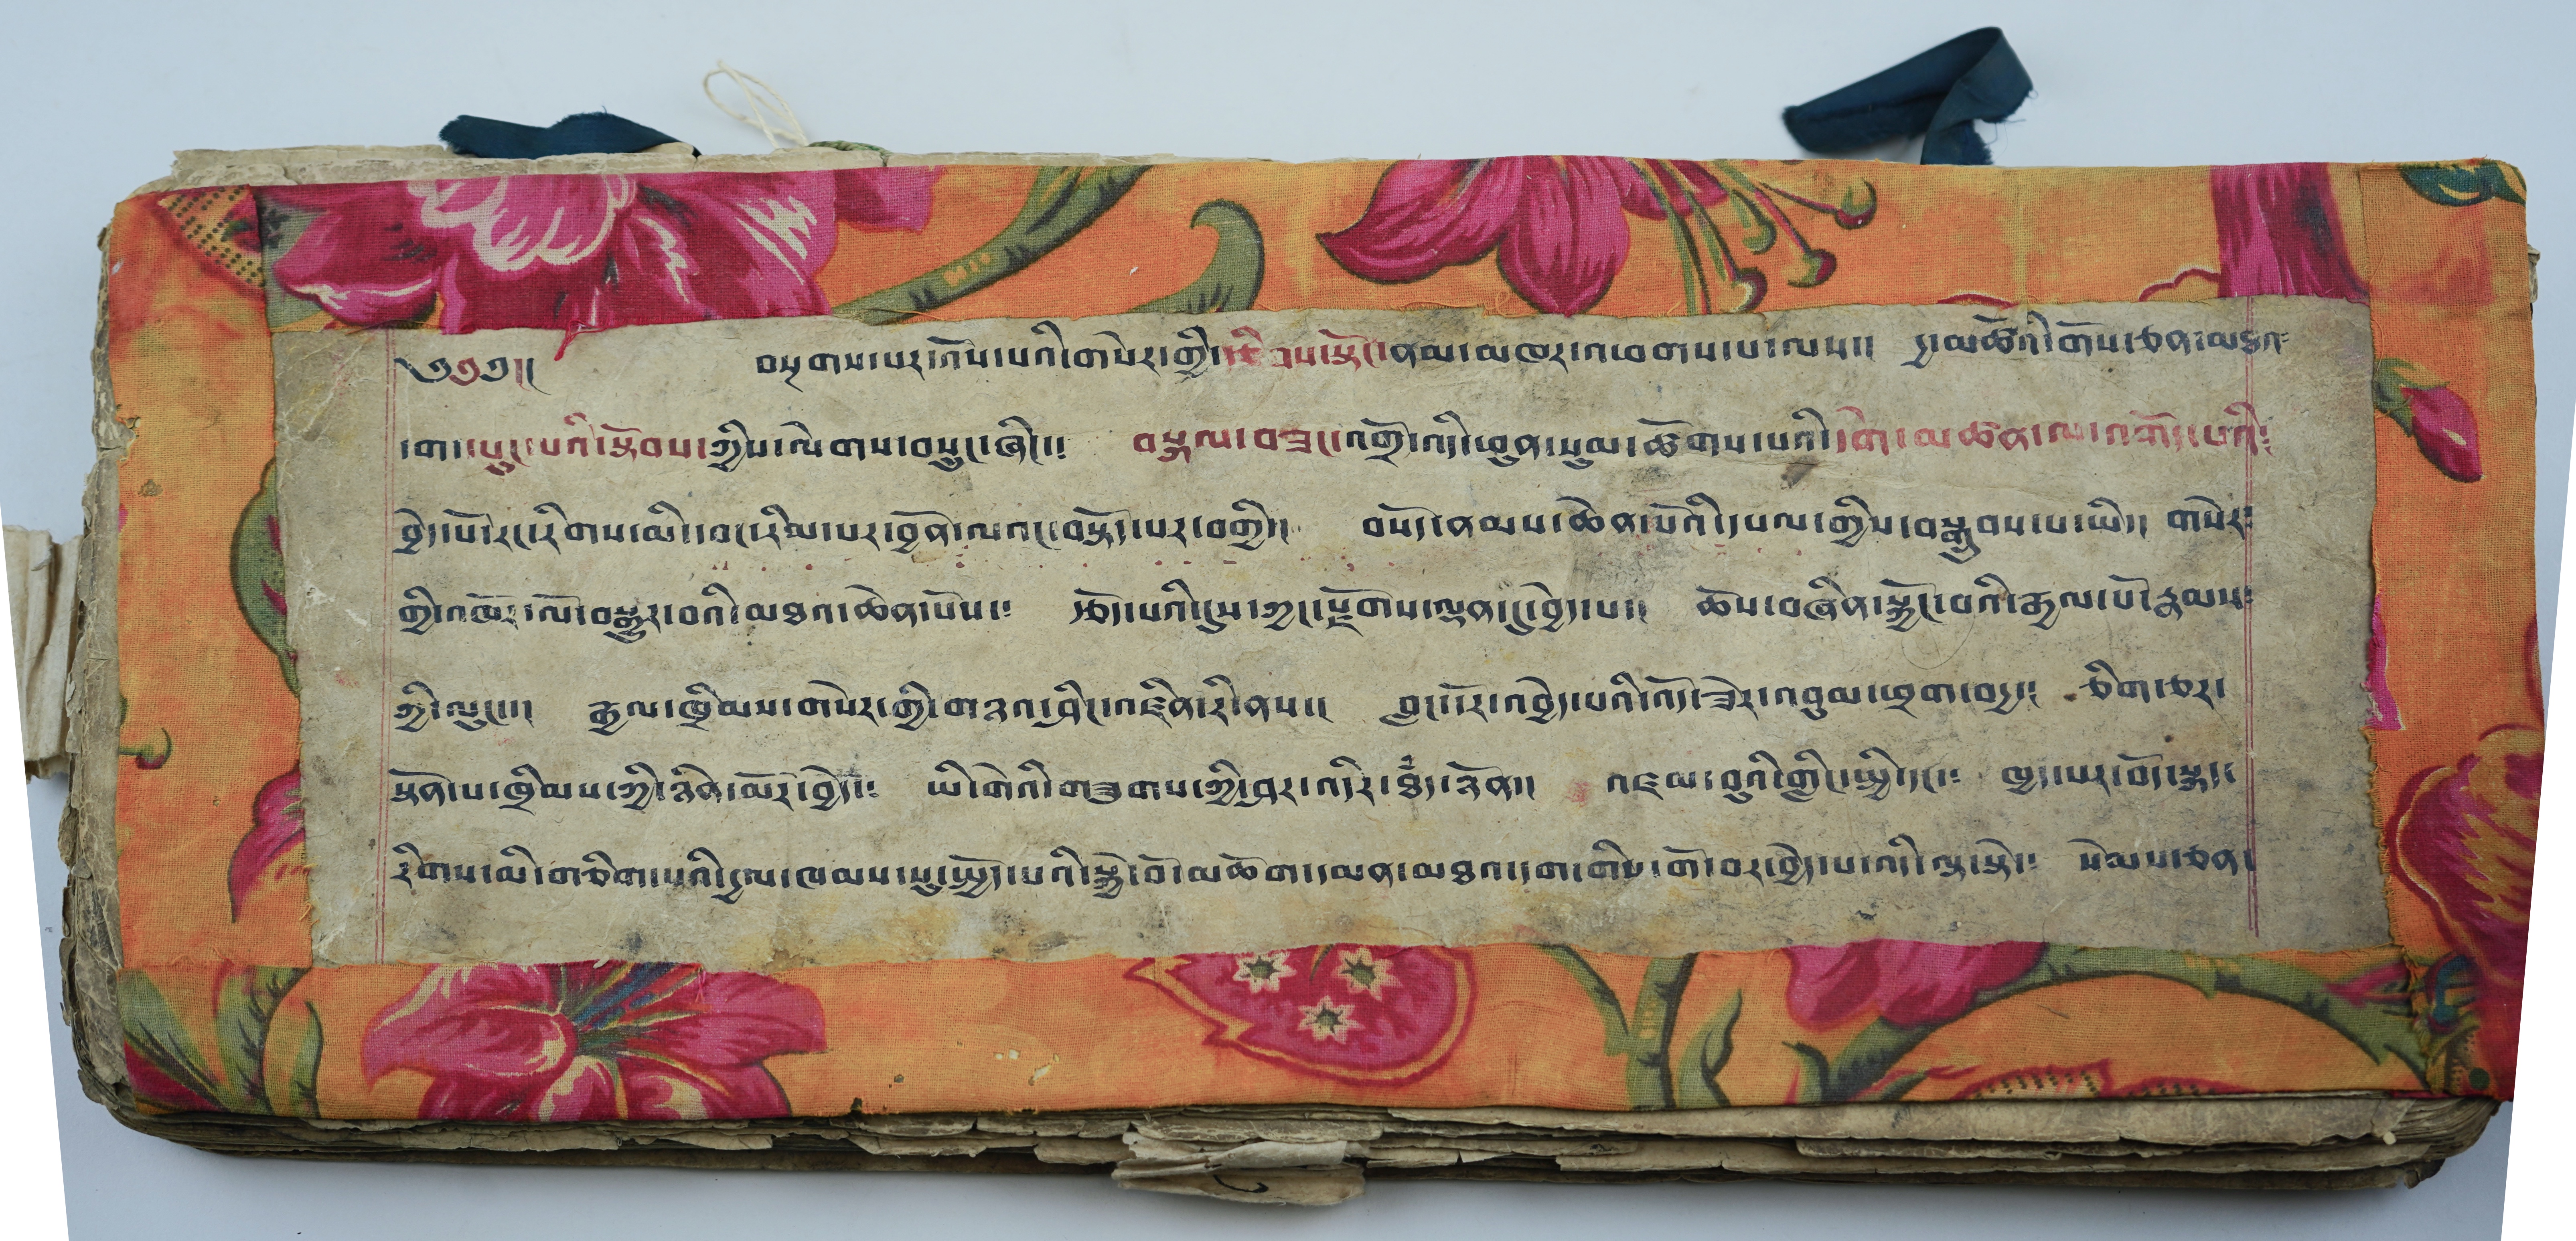༄༅༅།། བསྔགས་པར་འོས་པའི་གསེར་གྱི་རྩིབས་སྟོང་ནམ་མཁར་འཕགས་པ་ལས།། རྒྱ་མཚོའི་གོས་ཅན་མཐའ་
དག་དཔུང་པའི་སྟོབས་ཀྱིས་ལེགས་བསྲུང་ཞིང་༴ བསྐལ་བཟང་འགྲོ་འདི་ཕུན་སུམ་ཚོགས་པའི་དགེ་མཚན་ལ་འགོད་པའི༴
བྱེད་པོ་རང་རིགས་མི་དབང་རིམ་པར་བྱོན་ལའང་བསྟོད་པར་བགྱི། བསོད་ནམས་ཆེན་པོའི་དཔལ་གྱིས་བསྒྲུབས་པ་ཡི། གསེར་
གྱི་འཁོར་ལོ་བསྒྱུར་བའི་མཐའ་ཆེན་པོས་༴ རྩོད་པའི་དུས་ཀྱང་རྫོགས་ལྡན་དུ་བྱེད་པ། ཆོས་བཞིན་སྐྱོང་བའི་རྒྱལ་པོ་རྣམས༴
ཀྱི་ལུང་།། རྒྱལ་ཁྲིམས་གསེར་གྱི་གཉའ་ཤིང་འཛིན་རི་ནས།། བླང་དོར་འབྱེད་པའི་འོད་ཟེར་འབུམ་ཕྲག་བདྱ་༴ ཅིག་ཅར་
སྟོན་པ་ཁྲིམས་ཀྱི་ཉིན་མོར་བྱེད་༴ ཡི་གེའི་གཟུགས་ཀྱི་ཤར་འདིར་ཐཾད་ཉོན།། འཛམ་བུའི་གླིང་སྤྱི་དང་༴ ཁྱད་པར་བོད་སྐད་
རིགས་མི་གཅིག་པའི་དྱལ་ཁམས་སུ་སྤྱོད་པའི་སྐྱེ་བོ་མཆོག་དམན་མཐའ་དག་གིས་གོ་བར་བྱེད་པ་འདི་ལྟ་སྟེ་༴ སེམས་ཅན་
